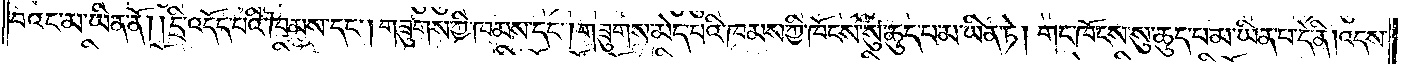བའང་མ་ཡིན་ནོ། །དྲི་འདོད་པའི་ཁམས་དང༌། གཟུགས་ཀྱི་ཁམས་དང༌། གཟུགས་མེད་པའི་ཁམས་ཀྱི་ཁོངས་སུ་ཆུད་པ་མ་ཡིན་ཏེ། གང་ཁོངས་སུ་ཆུད་པ་མ་ཡིན་པ་དེ་ནི། འདས་
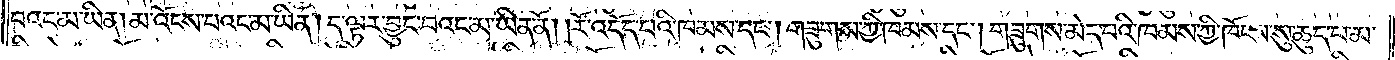བའང་མ་ཡིན། མ་འོངས་པའང་མ་ཡིན། ད་ལྟར་བྱུང་བའང་མ་ཡིན་ནོ། །རོ་འདོད་པའི་ཁམས་དང༌། གཟུགས་ཀྱི་ཁམས་དང༌། གཟུགས་མེད་པའི་ཁམས་ཀྱི་ཁོངས་སུ་ཆུད་པ་མ་
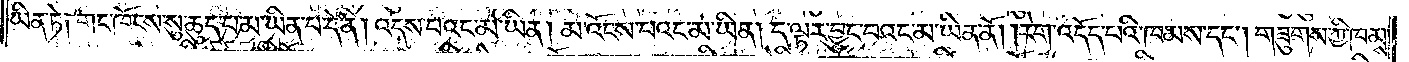ཡིན་ཏེ༑ གང་ཁོངས་སུ་ཆུད་པ་མ་ཡིན་པ་དེ་ནི། འདས་པའང་མ་ཡིན། མ་འོངས་པའང་མ་ཡིན། ད་ལྟར་བྱུང་བའང་མ་ཡིན་ནོ། །རེག་འདོད་པའི་ཁམས་དང༌། གཟུགས་ཀྱི་ཁམས་
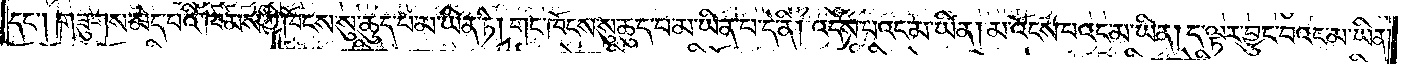དང༌། གཟུགས་མེད་པའི་ཁམས་ཀྱི་ཁོངས་སུ་ཆུད་པ་མ་ཡིན་ཏེ། གང་ཁོངས་སུ་ཆུད་པ་མ་ཡིན་པ་དེ་ནི། འདས་པའང་མ་ཡིན། མ་འོངས་པའང་མ་ཡིན། ད་ལྟར་བྱུང་བའང་མ་ཡིན་
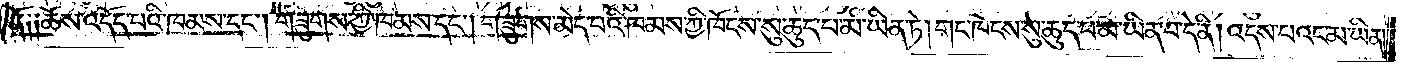ནོ༑ ༑ཆོས་འདོད་པའི་ཁམས་དང༌། གཟུགས་ཀྱི་ཁམས་དང༌། གཟུགས་མེད་པའི་ཁམས་ཀྱི་ཁོངས་སུ་ཆུད་པ་མ་ཡིན་ཏེ། གང་ཁོངས་སུ་ཆུད་པ་མ་ཡིན་པ་དེ་ནི། འདས་པའང་མ་ཡིན།
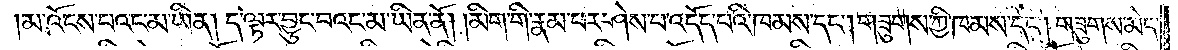མ་འོངས་པའང་མ་ཡིན། ད་ལྟར་བྱུང་བའང་མ་ཡིན་ནོ། །མིག་གི་རྣམ་པར་ཤེས་པ་འདོད་པའི་ཁམས་དང༌། གཟུགས་ཀྱི་ཁམས་དང༌། གཟུགས་མེད་
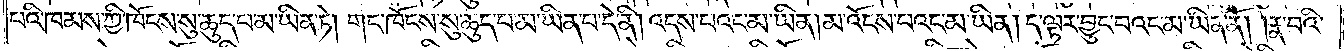པའི་ཁམས་ཀྱི་ཁོངས་སུ་ཆུད་པ་མ་ཡིན་ཏེ། གང་ཁོངས་སུ་ཆུད་པ་མ་ཡིན་པ་དེ་ནི། འདས་པའང་མ་ཡིན། མ་འོངས་པའང་མ་ཡིན། ད་ལྟར་བྱུང་བའང་མ་ཡིན་ནོ། །རྣ་བའི་
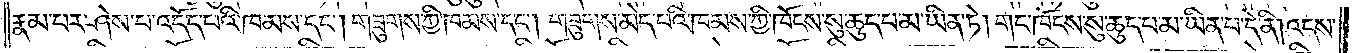རྣམ་པར་ཤེས་པ་འདོད་པའི་ཁམས་དང༌། གཟུགས་ཀྱི་ཁམས་དང༌། གཟུགས་མེད་པའི་ཁམས་ཀྱི་ཁོངས་སུ་ཆུད་པ་མ་ཡིན་ཏེ། གང་ཁོངས་སུ་ཆུད་པ་མ་ཡིན་པ་དེ་ནི། འདས་
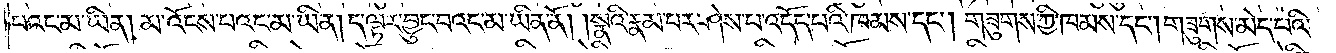པའང་མ་ཡིན། མ་འོངས་པའང་མ་ཡིན། ད་ལྟར་བྱུང་བའང་མ་ཡིན་ནོ། །སྣའི་རྣམ་པར་ཤེས་པ་འདོད་པའི་ཁམས་དང༌། གཟུགས་ཀྱི་ཁམས་དང༌། གཟུགས་མེད་པའི་
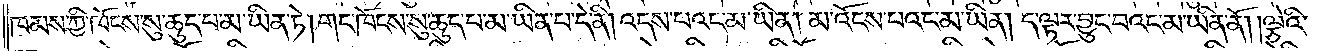ཁམས་ཀྱི་ཁོངས་སུ་ཆུད་པ་མ་ཡིན་ཏེ། གང་ཁོངས་སུ་ཆུད་པ་མ་ཡིན་པ་དེ་ནི། འདས་པའང་མ་ཡིན། མ་འོངས་པའང་མ་ཡིན། ད་ལྟར་བྱུང་བའང་མ་ཡིན་ནོ། །ལྕེའི་
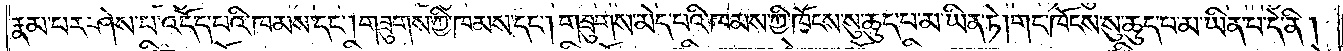རྣམ་པར་ཤེས་པ་འདོད་པའི་ཁམས་དང༌། གཟུགས་ཀྱི་ཁམས་དང༌། གཟུགས་མེད་པའི་ཁམས་ཀྱི་ཁོངས་སུ་ཆུད་པ་མ་ཡིན་ཏེ། གང་ཁོངས་སུ་ཆུད་པ་མ་ཡིན་པ་དེ་ནི།
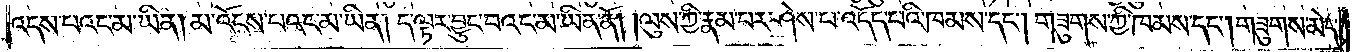འདས་པའང་མ་ཡིན། མ་འོངས་པའང་མ་ཡིན། ད་ལྟར་བྱུང་བའང་མ་ཡིན་ནོ། །ལུས་ཀྱི་རྣམ་པར་ཤེས་པ་འདོད་པའི་ཁམས་དང༌། གཟུགས་ཀྱི་ཁམས་དང༌། གཟུགས་མེད་
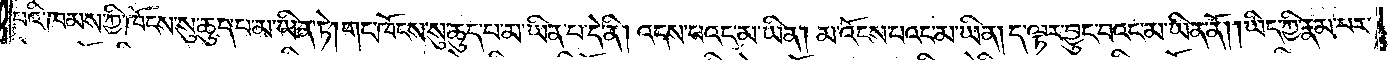པའི་ཁམས་ཀྱི་ཁོངས་སུ་ཆུད་པ་མ་ཡིན་ཏེ། གང་ཁོངས་སུ་ཆུད་པ་མ་ཡིན་པ་དེ་ནི། འདས་པའང་མ་ཡིན། མ་འོངས་པའང་མ་ཡིན། ད་ལྟར་བྱུང་བའང་མ་ཡིན་ནོ། །ཡིད་ཀྱི་རྣམ་པར་
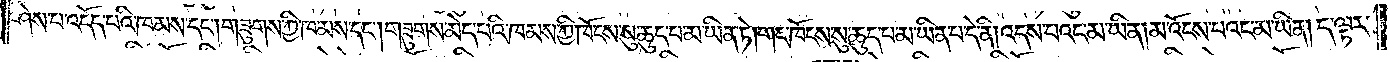ཤེས་པ་འདོད་པའི་ཁམས་དང༌། གཟུགས་ཀྱི་ཁམས་དང༌། གཟུགས་མེད་པའི་ཁམས་ཀྱི་ཁོངས་སུ་ཆུད་པ་མ་ཡིན་ཏེ། གང་ཁོངས་སུ་ཆུད་པ་མ་ཡིན་པ་དེ་ནི། འདས་པའང་མ་ཡིན། མ་འོངས་པའང་མ་ཡིན། ད་ལྟར་
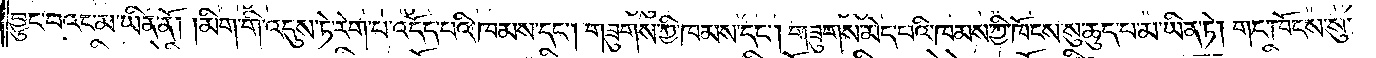བྱུང་བའང་མ་ཡིན་ནོ། །མིག་གི་འདུས་ཏ་རེག་པ་འདོད་པའི་ཁམས་དང༌། གཟུགས་ཀྱི་ཁམས་དང༌། གཟུགས་མེད་པའི་ཁམས་ཀྱི་ཁོངས་སུ་ཆུད་པ་མ་ཡིན་ཏེ། གང་ཁོངས་སུ་
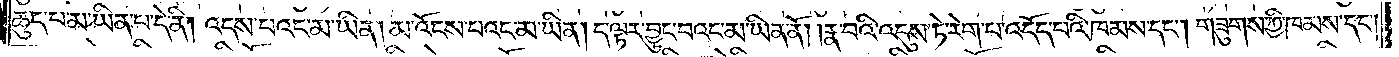ཆུད་པ་མ་ཡིན་པ་དེ་ནི། འདས་པའང་མ་ཡིན། མ་འོངས་པའང་མ་ཡིན། ད་ལྟར་བྱུང་བའང་མ་ཡིན་ནོ། །རྣ་བའི་འདུས་ཏེ་རེག་པ་འདོད་པའི་ཁམས་དང༌། གཟུགས་ཀྱི་ཁམས་དང༌།
